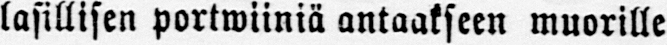lasillisen portwiiniä antaakseen muorille
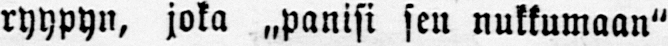ryypyn, joka ˶panisi sen nukkumaan"
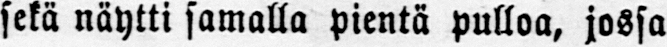sekä näytti samalla pientä pulloa, jossa
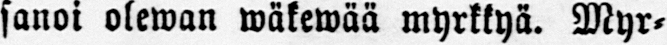sanoi olewan wäkewää myrkkyä. Myr-
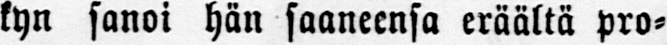kyn sanoi hän saaneensa eräältä pro-
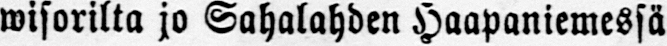wisorilta jo Sahalahden Haapaniemessä
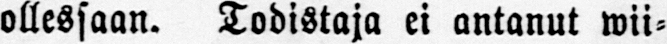ollessaan. Todistaja ei antanut wii-
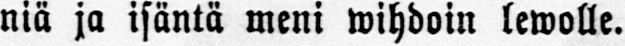niä ja isäntä meni wihdoin lewolle.
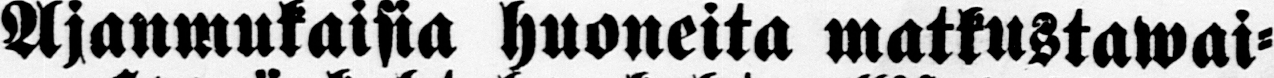Ajanmukaisia huoneita matkustawai-
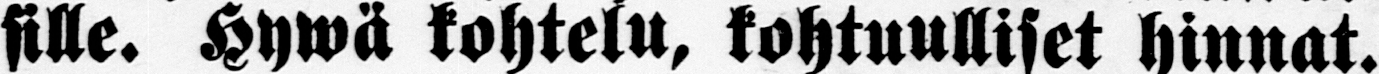sille. Hywä kohtelu, kohtuulliset hinnat.
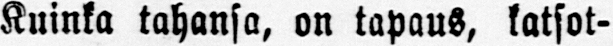Kuinka tahansa, on tapaus, katsot-
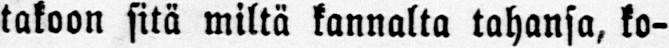takoon sitä miltä kannalta tahansa, ko-
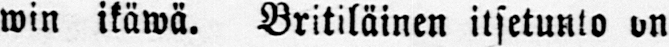min ikäwä. Britiläinen itsetunto on
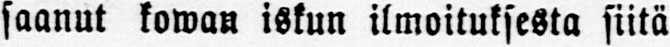saanut kowan iskun ilmoituksesta siitä
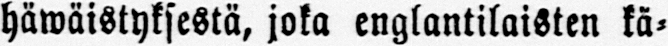häwäistyksestä, joka englantilaisten kä-
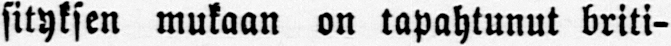sityksen mukaan on tapahtunut briti-
